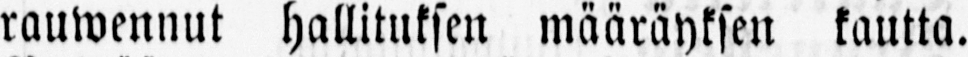rauwennut hallituksen määräyksen kautta.
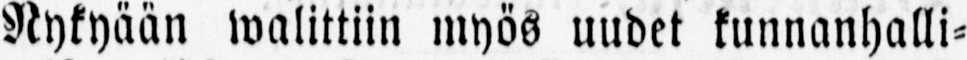Nykyään walittiin myös uudet kunnanhalli-
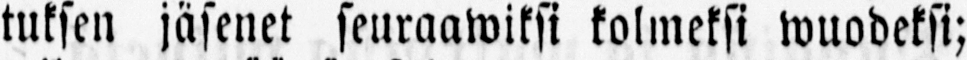tuksen jäsenet seuraawiksi kolmeksi wuodeksi;
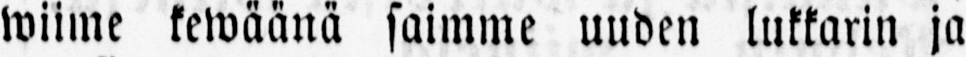wiime kewäänä saimme uuden lukkarin ja
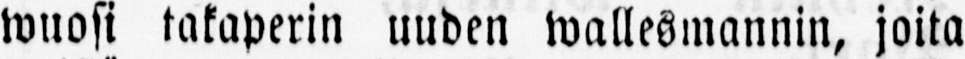wuosi takaperin uuden wallesmannin, joita
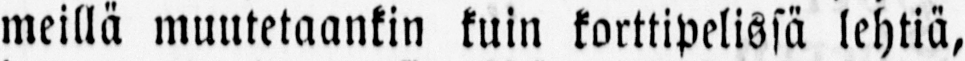meillä muutetaankin kuin korttipelissä lehtiä,
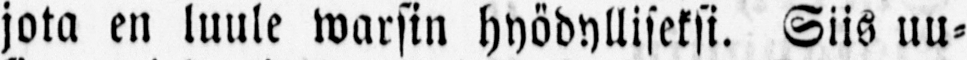jota en luule warsin hyödylliseksi. Siis uu-
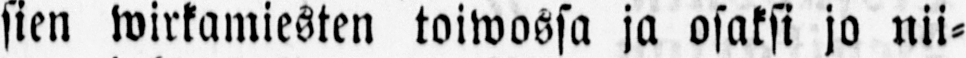sien wirkamiesten toiwossa ja osaksi jo nii-
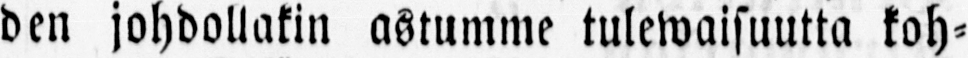den johdollakin astumme tulewaisuutta koh-
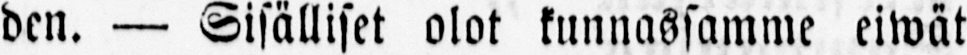den. — Sisälliset olot kunnassamme eiwät
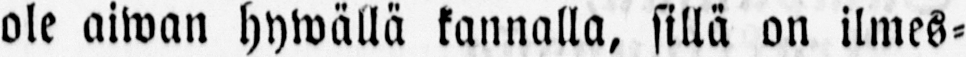ole aiwan hywällä kannalla, sillä on ilmes-
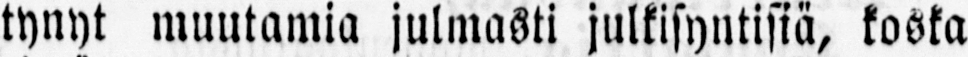tynyt muutamia julmasti julkisyntisiä, koska
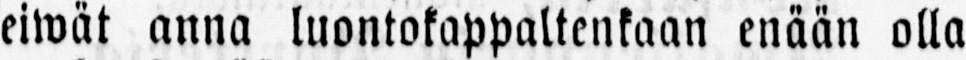eiwät anna luontokappaltenkaan enään olla
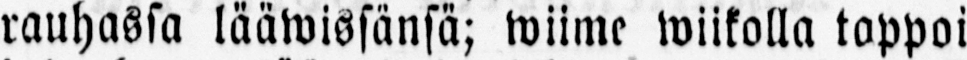rauhassa lääwissänsä; wiime wiikolla tappoi
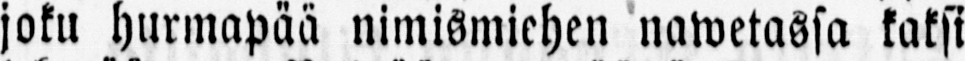joku hurmapää nimismiehen nawetassa kaksi
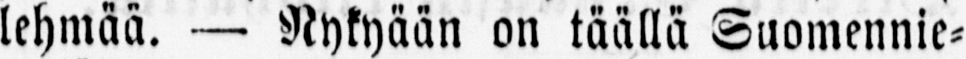lehmää. — Nykyään on täällä Suomennie-
